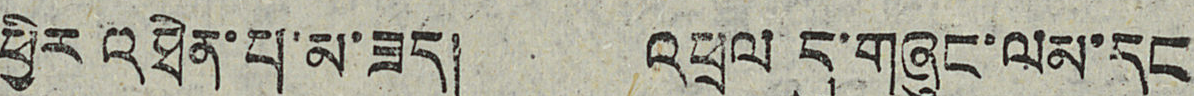ཕྱིར འཐེན་པ་མ་ཟད། འཕྲལ དུ་གཞུང་ལམ་དང
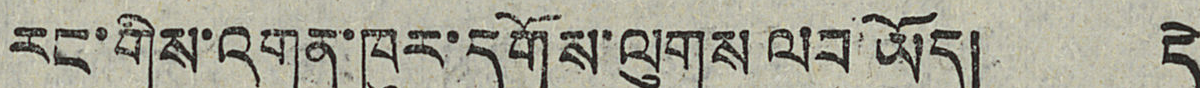རང་གིས་འགན་ཁུར་དགོས་ལུགས ལབ་ཡོད། དེ
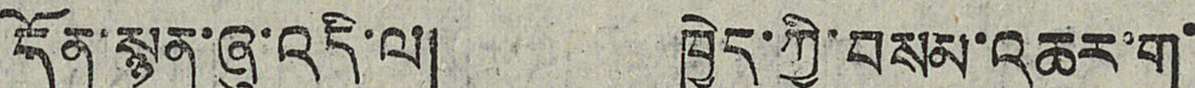དོན་སྙན་ཞུ་འདི་ལ། ཁྱེད་ཀྱི་བསམ་འཆར་ག་
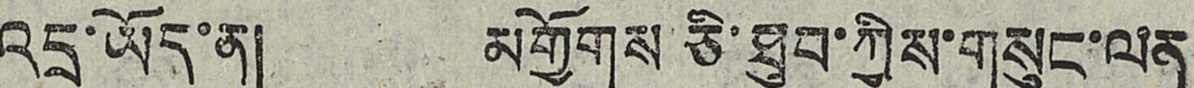འདྲ་ཡོད་ན། མགྱོགས ཅི་ཐུབ་ཀྱིས་གསུང་ལན
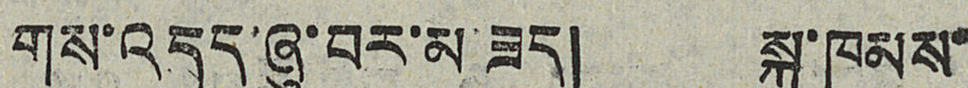གུས་འདུད་ཞུ་བར་མ་ཟད། སྐུ་ཁམས་
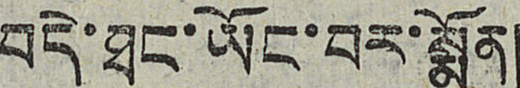བདེ་ཐང་ཡོང་བར་སྨོན།
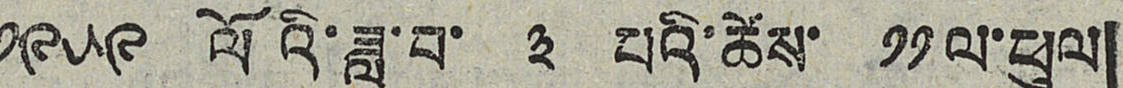༡༩༥༩ ལོའི་ཟླ་བ་ ༣ པའི་ཚེས་ ༡༡ ལ་ཕུལ།
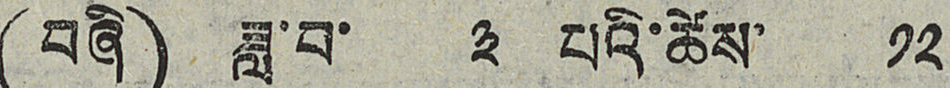(བཞི) ཟླ་བ་ ༣ པའི་ཚེས་ ༡༢
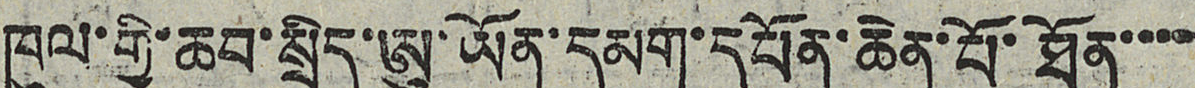ཁུལ་གྱི་ཆབ་སྲིད་ཨུ་ཡོན་དམག་དཔོན་ཆེན་པོ་ཐོན་་་་
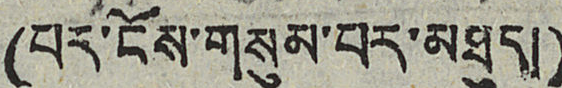(པར་ངོས་གསུམ་པར་མཐུད།)
